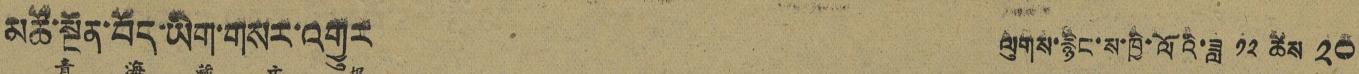མཚོ་སྔོན་བོད་ཡིག་གསར་འགྱུར ལུགས་སྙིང་ས་ཁྱི་ལོའི་ཟླ ༡༢ ཚེས ༢༠
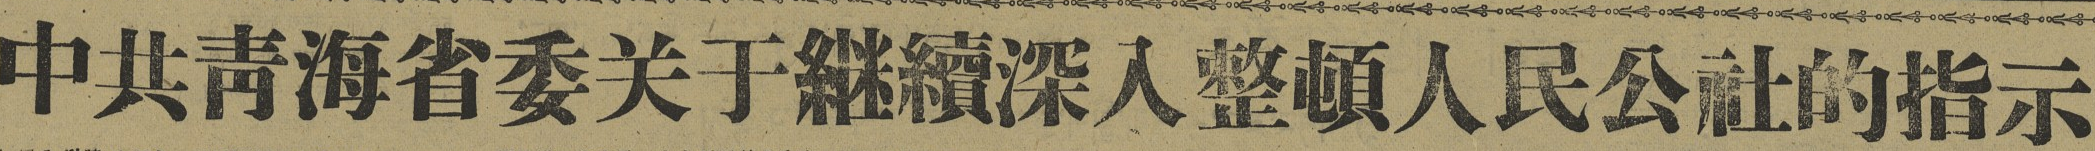中共靑海省委关于継續深入整頓人民公社的指示
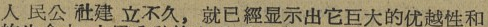人 民公 社建 立不久，就已經显示出它巨大的优越性和
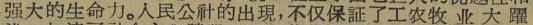强大的生命力。人民公社的出現，不仅保証了工农牧 业 大 躍
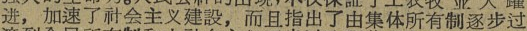进，加速了社会主义建设，而且指出了由集体所有制逐步过
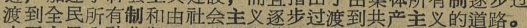渡到全民所有制和由社会主义逐步过渡到共产主义的道路。
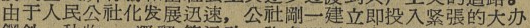由于人民公社化发展迅速，公社剛一建立即投入紧張的大办
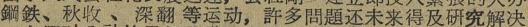鋼鉄、秋收、深翻等运动，許多問題还未来得及研究解决
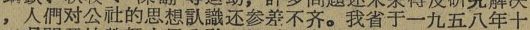，人們对公社的思想认識还参差不齐。我省于一九五八年十
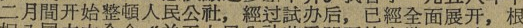二月間开始整頓人民公社，經过試办后，已經全面展开，根
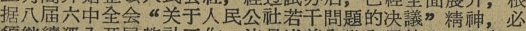据八届六中全会“关于人民公社若干問題的决議”精神，必
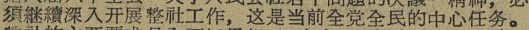須継續深入开展整社工作，这是当前全党全民的中心任务。
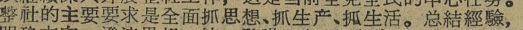整社的主要要求是全面抓思想、抓生产、抓生活。总結經驗，
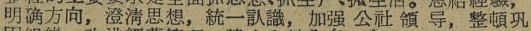明确方向，澄清思想，統一认識，加强公社領导，整頓巩
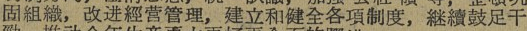固組織，改进經营管理，建立和健全各項制度，継續鼓足干
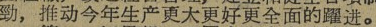勁，推动今年生产更大更好更全面的躍进。
